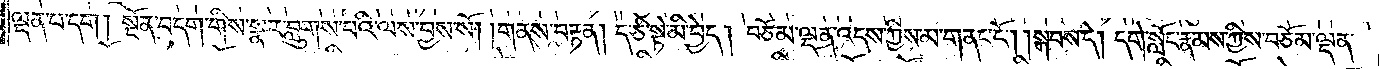ལྡན་པ་དག ། སྔོན་བདག་གིས་སྣར་བླུགས་པའི་ལས་བྱས་སོ། །གནས་བརྟན། ད་ཅི་སྟེ་མི་བྱེད། བཅོམ་ལྡན་འདས་ཀྱིས་མ་གནང་ངོ༌། །སྐབས་དེ། དགེ་སློང་རྣམས་ཀྱིས་བཅོམ་ལྡན་
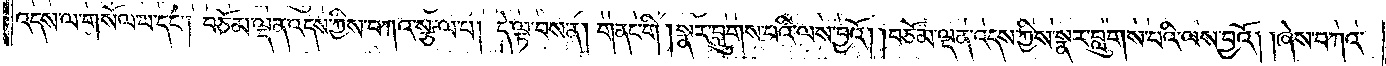འདས་ལ་གསོལ་པ་དང༌། བཅོམ་ལྡན་འདས་ཀྱིས་བཀའ་སྩལ་པ། དེ་ལྟ་བས་ན། གནང་གི །སྣར་བླུགས་པའི་ལས་བྱའོ། །བཅོམ་ལྡན་འདས་ཀྱིས་སྣར་བླུགས་པའི་ལས་བྱའོ། །ཞེས་བཀའ་
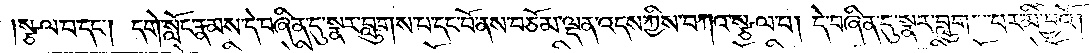སྩལ་བ་དང༌། དགེ་སློང་རྣམས་དེ་བཞིན་དུ་སྣར་བླུགས་པ་དང་བོ་ནས་བཅོམ་ལྡན་འདས་ཀྱིས་བཀའ་སྩལ་པ། དེ་བཞིན་དུ་སྣར་བླུག་པར་མི་བྱའོ །
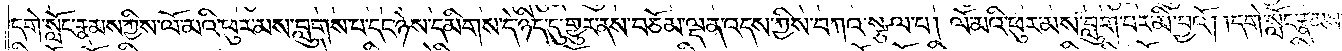དགེ་སློང་རྣམས་ཀྱིས་ལོ་མའི་ཕུར་མས་བླུགས་པ་དང་ཉེས་དམིགས་དེ་ཉིད་དུ་གྱུར་ནས་བཅོམ་ལྡན་འདས་ཀྱིས་བཀའ་སྩལ་པ། ལོ་མའི་ཕུར་མས་བླུག་པར་མི་བྱའོ། །དགེ་སློང་རྣམས་
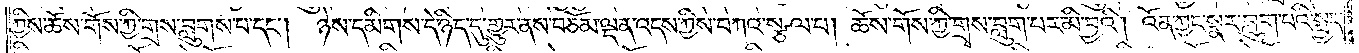ཀྱིས་ཆོས་གོས་ཀྱི་གྲས་བླུགས་པ་དང༌། ཉེས་དམིགས་དེ་ཉིད་དུ་གྱུར་ནས་བཅོམ་ལྡན་འདས་ཀྱིས་བཀའ་སྩལ་པ། ཆོས་གོས་ཀྱི་གྲྭས་བླུག་པར་མི་བྱའོ། འོན་ཀྱང་སྣར་བླུག་པའི་སྤྱད་
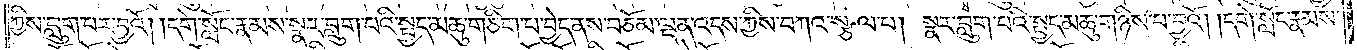ཀྱིས་བླུག་པར་བྱའོ། །དགེ་སློང་རྣམས་སྣར་བླུག་པའི་སྤྱད་མཆུ་གཅིག་པ་བྱེད་ནས་བཅོམ་ལྡན་འདས་ཀྱིས་བཀའ་སྩལ་པ། སྣར་བླུག་པའི་སྤྱད་མཆུ་གཉིས་པ་བྱའོ། །དགེ་སློང་རྣམས་
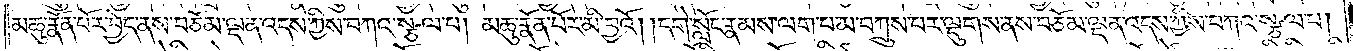མཆུ་རྣོན་པོར་བྱེད་ནས་བཅོམ་ལྡན་འདས་ཀྱིས་བཀའ་སྩལ་པ། མཆུ་རྣོན་པོར་མི་བྱའོ། །དགེ་སློང་རྣམས་ལག་པ་མ་བཀྲུས་པར་ལྡུགས་ནས་བཅོམ་ལྡན་འདས་ཀྱིས་བཀའ་སྩལ་པ།
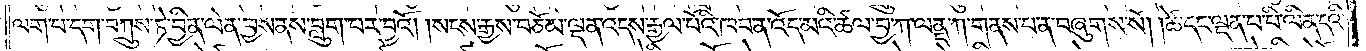ལག་པ་དག་བཀྲུས་ཏེ་བྱིན་ལེན་བྱས་ནས་བླུག་པར་བྱའོ། །སངས་རྒྱས་བཅོམ་ལྡན་འདས་རྒྱལ་ཕོའི་ཁབ་ན་འོད་མའི་ཚལ་བྱ་ཀ་ལནྡ་ཀ་གནས་པ་ན་བཞུགས་སོ། །ཚེ་དང་ལྡན་པ་པི་ལིན་དའི་
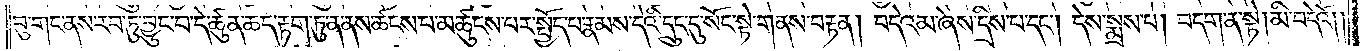བུ་གང་ནས་རབ་ཏུ་བྱུང་བ་དེ་ཚུན་ཆད་རྟག་ཏུ་ན་ནས་ཚངས་པ་མཚུངས་པར་སྤྱོད་པ་རྣམས་དེའི་དྲུང་དུ་སོང་སྟེ་གནས་བརྟན། བདེའམ་ཞེས་དྲིས་པ་དང༌། དེས་སྨྲས་པ། བདག་ན་སྟེ། མི་བདེའོ། །
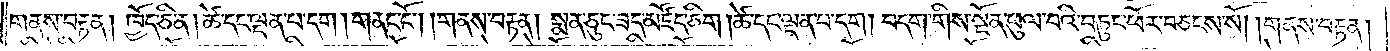གནས་བརྟན། ཁྱོད་ཅི་ན། ཚེ་དང་ལྡན་པ་དག །གནང་ངོ༌། །གནས་བརྟན། སྨན་ཅུང་ཟད་མཛོད་ཅིག །ཚེ་དང་ལྡན་པ་དག། བདག་གིས་སྔོན་ཕུལ་བའི་བཏུང་ཕོར་བཅངས་སོ། །གནས་བརྟན།
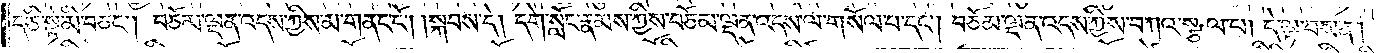ད་ཅི་སྟེ་མི་བཅང༌། བཅོམ་ལྡན་འདས་ཀྱིས་མ་གནང་ངོ༌། །སྐབས་དེ། དགེ་སློང་རྣམས་ཀྱིས་བཅོམ་ལྡན་འདས་ལ་གསོལ་པ་དང༌། བཅོམ་ལྡན་འདས་ཀྱིས་བཀའ་སྩལ་པ། དེ་ལྟ་བས་ན།
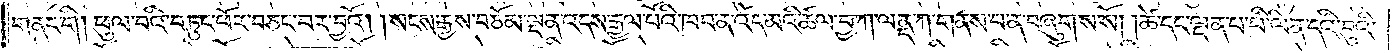གནང་གི །ཕུལ་པའི་བཏུང་ཕོར་བཅང་བར་བྱའོ། །སངས་རྒྱས་བཅོམ་ལྡན་འདས་རྒྱལ་པོའི་ཁབ་ན་འོད་མའི་ཚལ་བྱ་ཀ་ལནྡ་ཀ་གནས་པ་ན་བཞུགས་སོ། །ཆེ་དང་ལྡན་པ་པི་ལིན་དའི་བུའི་
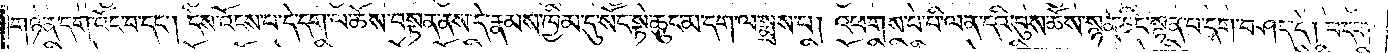གཉེན་དག་འོང་བ་དང༌། དེས་འོངས་པ་དེ་དག་ལ་ཆོས་བསྟན་ནས་དེ་རྣམས་ཁྱིམ་དུ་སོང་སྟེ་ཆུང་མ་དག་ལ་སྨྲས་པ། འཕགས་པ་པི་ལན་དའི་བུས་ཆོས་སྙན་ཅིང་སྙན་པ་དག་བཤད་དེ། བདག་
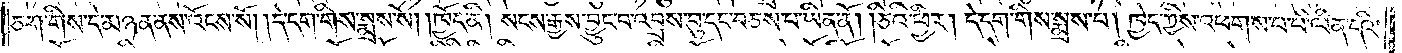ཅག་གིས་དེ་མཉན་ནས་འོངས་སོ། །དེ་དག་གིས་སྨྲས་སོ། །ཁྱོད་ནི། སངས་རྒྱས་བྱུང་བ་འབྲས་བུ་དང་བཅས་པ་ཡིན་ནོ། །ཅིའི་ཕྱིར། དེ་དག་གིས་སྨྲས་པ། ཁྱེད་ཀྱིས་འཕགས་པ་པི་ལིན་དའི་
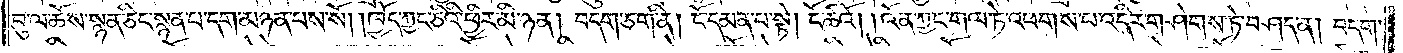བུ་ལ་ཆོས་སྙན་ཅིང་སྙན་པ་དག་མཉན་པས་སོ། །ཁྱོད་ཀྱང་ཅིའི་ཕྱིར་མི་ཉན། བདག་ཅག་ནི། ངོ་དམན་པ་སྟེ། ངོ་ཚའོ། །འོན་ཀྱང་གལ་ཏེ་འཕགས་པ་འདིར་གཤེགས་ཏེ་བཤད་ན། བདག་
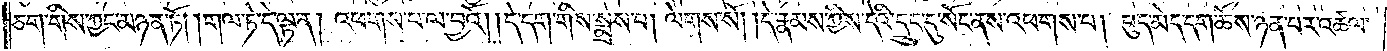ཅག་གིས་ཀྱང་མཉན་ཏོ། །གལ་ཏེ་དེ་ལྟ་ན། འཕགས་པ་ལ་བྱའོ། །དེ་དག་གིས་སྨྲས་པ། ལེགས་སོ། །དེ་རྣམས་ཀྱིས་དེའི་དྲུང་དུ་སོང་ནས་འཕགས་པ། བུད་མེད་དག་ཆོས་ཉན་པར་འཚལ་
